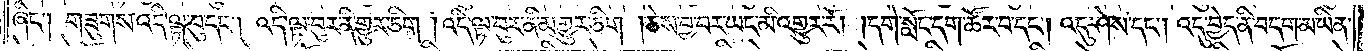ཞིང༌། གཟུགས་འདི་ལྟ་བུ་དང༌། འདི་ལྟ་བུར་ནི་གྱུར་ཅིག །འདི་ལྟ་བུར་ནི་མ་གྱུར་ཅིག །ཅེས་བྱ་བར་ཡང་མི་འགྱུར་རོ། །དགེ་སློང་དག་ཚོར་བ་དང༌། འདུ་ཤེས་དང༌། འདུ་བྱེད་ནི་བདག་མ་ཡིན་
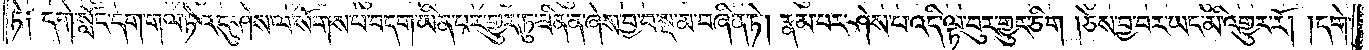ཏེ༑ དགེ་སློང་དག་གལ་ཏེ་འདུ་ཤེས་ལ་སོགས་པ་བདག་ཡིན་པར་གྱུར་ཏུ་ཟིན་ན་ཞེས་བྱ་བ་སྔ་མ་བཞིན་ཏེ། རྣམ་པར་ཤེས་པ་འདི་ལྟ་བུར་གྱུར་ཅིག །ཅེས་བྱ་བར་ཡང་མི་འགྱུར་རོ། །དགེ་
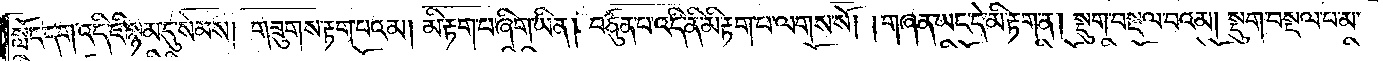སློང་དག་འདི་ཇི་སྙམ་དུ་སེམས། གཟུགས་རྟག་པའམ། མི་རྟག་པ་ཞིག་ཡིན། བཙུན་པ་འདི་ནི་མི་རྟག་པ་ལགས་སོ། །གཞན་ཡང་དེ་མི་རྟག་ན། སྡུག་བསྔལ་བའམ། སྡུག་བསྔལ་བ་མ་
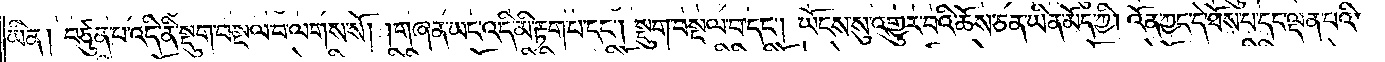ཡིན། བཙུན་པ་འདི་ནི་སྡུག་བསྔལ་བ་ལགས་སོ། །གཞན་ཡང་འདི་མི་རྟག་པ་དང༌། སྡུག་བསྔལ་བ་དང༌། ཡོངས་སུ་འགྱུར་བའི་ཆོས་ཅན་ཡིན་མོད་ཀྱི། འོན་ཀྱང་དེ་ཐོས་པ་དང་ལྡན་པའི་
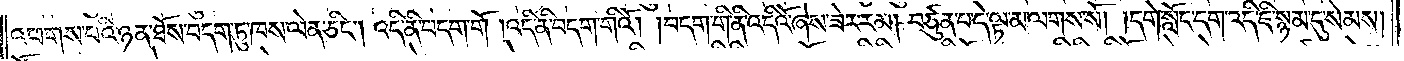འཕགས་པའི་ཉན་ཐོས་བདག་ཏུ་ཁས་ལེན་ཅིང༌། འདི་ནི་བདག་གོ །འདི་ནི་བདག་གིའོ། །བདག་གི་ནི་འདིའོ་ཞེས་ཟེར་རམ། བཙུན་པ་དེ་ལྟ་མ་ལགས་སོ། །དགེ་སློང་དག་འདི་ཇི་སྙམ་དུ་སེམས།
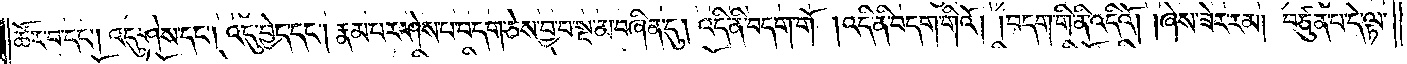ཚོར་བ་དང༌། འདུ་ཤེས་དང༌། འདུ་བྱེད་དང༌། རྣམ་པར་ཤེས་པ་བདག་ཅེས་བྱ་བ་སྔ་མ་བཞིན་དུ། འདི་ནི་བདག་གོ །འདི་ནི་བདག་གིའོ། །བདག་གི་ནི་འདིའོ། །ཞེས་ཟེར་རམ། བཙུན་པ་དེ་ལྟ་
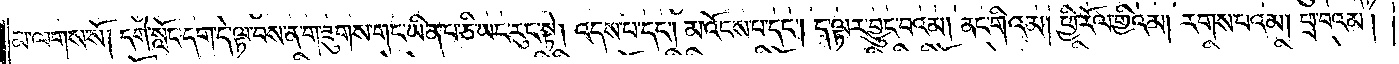མ་ལགས་སོ། །དགེ་སློང་དག་དེ་ལྟ་བས་ན་གཟུགས་གང་ཡིན་པ་ཅི་ཡང་རུང་སྟེ། འདས་པ་དང༌། མ་འོངས་པ་དང༌། ད་ལྟར་བྱུང་བའམ། ནང་གིའམ། ཕྱི་རོལ་གྱིའམ། རགས་པའམ། ཕྲ་བའམ།
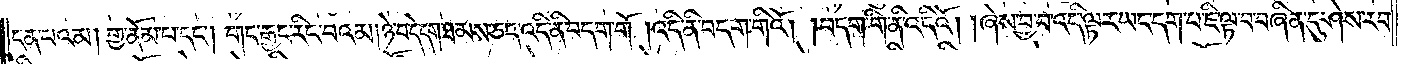ངན་པའམ། གྱ་ནོམ་པ་དང༌། གང་རྒྱང་རིང་བའམ། ཉེ་བ་དེ་དག་ཐམས་ཅད་འདི་ནི་བདག་གོ །འདི་ནི་བདག་གིའོ། །བདག་གི་ནི་འདིའོ། །ཞེས་བྱ་བ་འདི་ལྟར་ཡང་དག་པ་ཇི་ལྟ་བ་བཞིན་དུ་ཤེས་རབ་
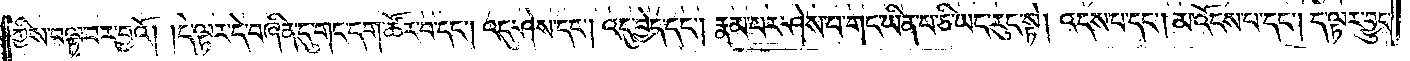ཀྱིས་བལྟ་བར་བྱའོ། །དེ་ལྟར་དེ་བཞིན་དུ་གང་དག་ཚོར་བ་དང༌། འདུ་ཤེས་དང༌། འདུ་བྱེད་དང༌། རྣམ་པར་ཤེས་པ་གང་ཡིན་པ་ཅི་ཡང་རུང་སྟེ། འདས་པ་དང༌། མ་འོངས་པ་དང༌། ད་ལྟར་བྱུང་
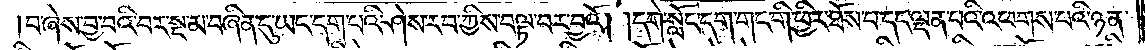བ་ཞེས་བྱ་བའི་བར་སྔ་མ་བཞིན་དུ་ཡང་དག་པའི་ཤེས་རབ་ཀྱིས་བལྟ་བར་བྱའོ། །དགེ་སློང་དག་གང་གི་ཕྱིར་ཐོས་པ་དང་ལྡན་པའི་འཕགས་པའི་ཉན་
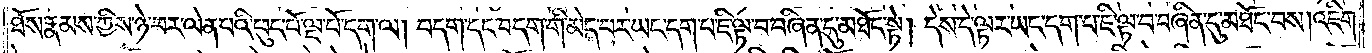ཐོས་རྣམས་ཀྱིས་ཉེ་བར་ལེན་པའི་ཕུང་པོ་ལྔ་པོ་དག་ལ། བདག་དང་བདག་གི་མེད་པར་ཡང་དག་པ་ཇི་ལྟ་བ་བཞིན་དུ་མཐོང་སྟེ། དེས་དེ་ལྟར་ཡང་དག་པ་ཇི་ལྟ་བ་བཞིན་དུ་མཐོང་བས། འཇིག་
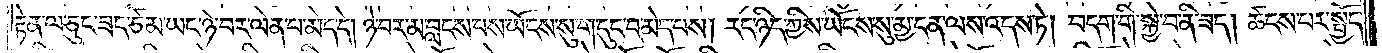རྟེན་ལ་ཅུང་ཟད་ཙམ་ཡང་ཉེ་བར་ལེན་པ་མེད་དེ། ཉེ་བར་མ་བླངས་པས་ཡོངས་སུ་གདུང་བ་མེད་པས། རང་ཉིད་ཀྱིས་ཡོངས་སུ་མྱ་ངན་ལས་འདས་ཏེ། བདག་གི་སྐྱེ་བ་ནི་ཟད། ཚངས་པར་སྤྱོད་
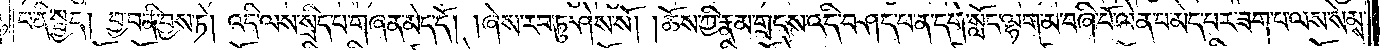པ་ནི་སྤྱད། བྱ་བ་ནི་བྱས་ཏེ། འདི་ལས་སྲིད་པ་གཞན་མེད་དོ། །ཞེས་རབ་ཏུ་ཤེས་སོ། །ཆོས་ཀྱི་རྣམ་གྲངས་འདི་བཤད་པ་ན་དགེ་སློང་ལྷག་མ་བཞི་པོ་ལེན་པ་མེད་པར་ཟག་པ་ལས་སེམས་
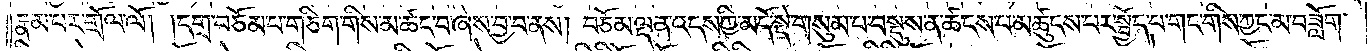རྣམ་པར་གྲོལ་ལོ། །དགྲ་བཅོམ་པ་གཅིག་གིས་མ་ཚང་བ་ཞེས་བྱ་བ་ནས། བཅོམ་ལྡན་འདས་ཀྱི་མདོ་སྡེ་གསུམ་པ་བསྡུས་ན་ཚངས་པ་མཚུངས་པར་སྤྱོད་པ་གང་གིས་ཀྱང་མ་བཟློག་
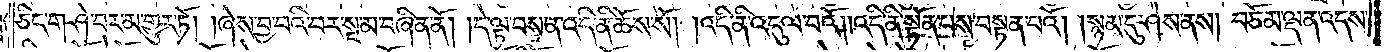ཅིང་གཤེ་བར་མ་གྱུར་ཏོ། །ཞེས་བྱ་བའི་བར་སྔ་མ་བཞིན་ནོ། །དེ་ལྟ་བས་ན་འདི་ནི་ཆོས་སོ། །འདི་ནི་འདུལ་བའོ། །འདི་ནི་སྟོན་པས་བསྟན་པའོ། །སྙམ་དུ་ཤེས་ནས། བཅོམ་ལྡན་འདས་
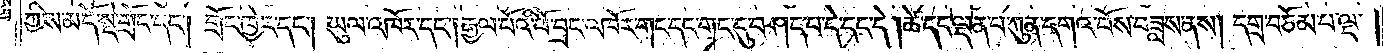ཀྱིས་མདོ་སྡེ་གྲོང་དང༌། གྲོང་ཁྱེར་དང༌། ཡུལ་འཁོར་དང༌། རྒྱལ་པོའི་ཕོ་བྲང་འཁོར་གང་དང་གང་དུ་བཤད་པ་དེ་དང་དེ། ཚེ་དང་ལྡན་པ་ཀུན་དགའ་བོས་བཟླས་ནས། དགྲ་བཅོམ་པ་ལྔ་
